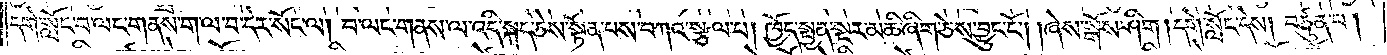དགེ་སློང་བ་ལང་གནས་ག་ལ་བ་དེར་སོང་ལ། བ་ལང་གནས་ལ་འདི་སྐད་ཅེས་སྟོན་པས་བཀའ་སྩལ་པ། ཁྱོད་སྤྱན་སྔར་མཆི་ཞིག་ཅེས་བྱུང་ངོ༌། །ཞེས་སྒོས་ཤིག །དགེ་སློང་དེས། བཙུན་པ།
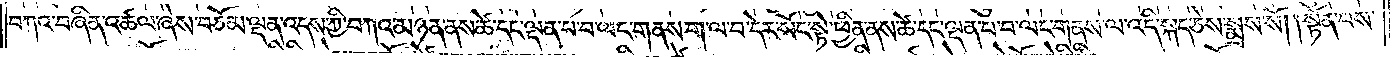བཀའ་བཞིན་འཚལ་ཞེས་བཅོམ་ལྡན་འདས་ཀྱི་བཀའ་མཉན་ནས་ཚེ་དང་ལྡན་པ་བ་ལང་གནས་ག་ལ་བ་དེར་སོང་སྟེ་ཕྱིན་ནས་ཚེ་དང་ལྡན་པ་བ་ལང་གནས་ལ་འདི་སྐད་ཅེས་སྨྲས་སོ། །སྟོན་པས་
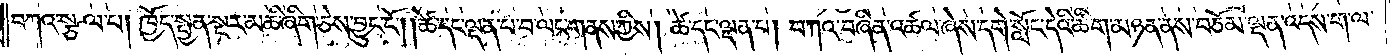བཀའ་སྩལ་པ། ཁྱོད་སྤྱན་སྔར་མཆི་ཞིག་ཅེས་བྱུང་ངོ༌། །ཚེ་དང་ལྡན་པ་བ་ལང་གནས་ཀྱིས། ཚེ་དང་ལྡན་པ། བཀའ་བཞིན་འཚལ་ཞེས་དགེ་སློང་དེའི་ཚིག་མཉན་ནས་བཅོམ་ལྡན་འདས་ག་ལ་
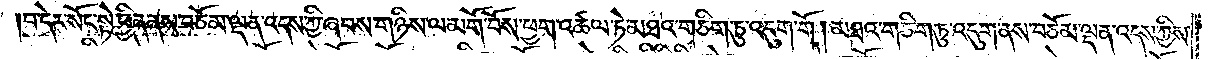བ་དེར་སོང་སྟེ་ཕྱིན་ནས་བཅོམ་ལྡན་འདས་ཀྱི་ཞབས་གཉིས་ལ་མགོ་བོས་ཕྱག་འཚལ་ཏེ་མཐའ་གཅིག་ཏུ་འདུག་གོ །མཐའ་གཅིག་ཏུ་འདུག་ནས་བཅོམ་ལྡན་འདས་ཀྱིས་
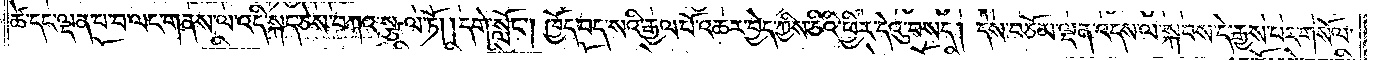ཚེ་དང་ལྡན་པ་བ་ལང་གནས་ལ་འདི་སྐད་ཅེས་བཀའ་སྩལ་ཏོ། །དགེ་སློང༌། ཁྱོད་བད་སའི་རྒྱལ་པོ་འཆར་བྱེད་ཀྱིས་ཅིའི་ཕྱིར་དེའུ་བསད། དེས་བཅོམ་ལྡན་འདས་ལ་སྐབས་དེ་རྒྱས་པར་གསོལ་
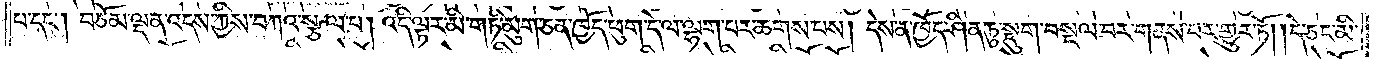པ་དང༌། བཅོམ་ལྡན་འདས་ཀྱིས་བཀའ་སྩལ་པ། འདི་ལྟར་མི་གཏི་མུག་ཅན་ཁྱོད་ཕུག་དེ་ལ་ལྷག་པར་ཆགས་པས། དེས་ན་ཁྱོད་ཤིན་ཏུ་སྡུག་བསྔལ་བར་གནས་པར་གྱུར་ཏོ། །དེ་ཅང་མི་
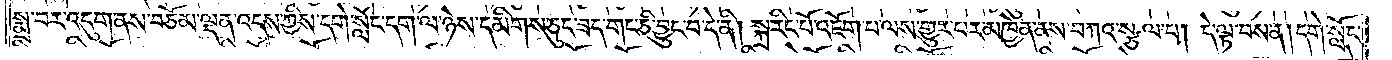སྨྲ་བར་འདུག་ནས་བཅོམ་ལྡན་འདས་ཀྱིས་དགེ་སློང་དག་ལ་ཉེས་དམིགས་ཅུང་ཟད་གང་ཅི་བྱུང་བ་དེ་ནི། སྐྲ་རིང་པོ་འཇོག་པ་ལས་གྱུར་པར་མཁྱེན་ནས་བཀའ་སྩལ་པ། དེ་ལྟ་བས་ན། དགེ་སློང་
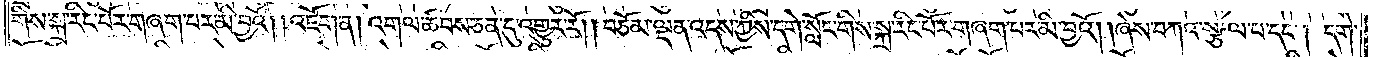གིས་སྐྲ་རིང་པོར་གཞག་པར་མི་བྱའོ། །འཇོག་ན། འགལ་ཚབས་ཅན་དུ་འགྱུར་རོ། །བཅོམ་ལྡན་འདས་ཀྱིས་དགེ་སློང་གིས་སྐྲ་རིང་པོར་གཞག་པར་མི་བྱའོ། །ཞེས་བཀའ་སྩལ་པ་དང༌། དགེ་
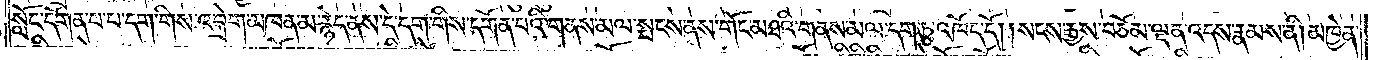སློང་དགོན་པ་པ་དག་གིས་འབྲེག་མཁན་མ་རྙེད་ནས་དེ་དག་གིས་དགོན་པའི་གནས་མལ་སྤངས་ནས་གོང་མཐའི་གནས་མལ་དག་ཏུ་འཁོད་དོ། །སངས་རྒྱས་བཅོམ་ལྡན་འདས་རྣམས་ནི། མཁྱེན་
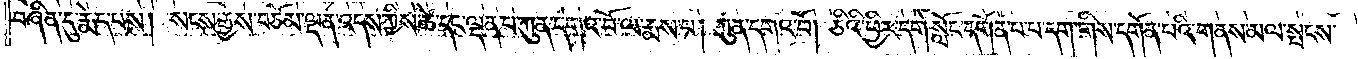བཞིན་དུ་རྨེད་པས། སངས་རྒྱས་བཅོམ་ལྡན་འདས་ཀྱིས་ཚེ་དང་ལྡན་པ་ཀུན་དགའ་བོ་ལ་རྨས་པ། ཀུན་དགའ་བོ། ཅིའི་ཕྱིར་དགེ་སློང་དགོན་པ་པ་དག་གིས་དགོན་པའི་གནས་མལ་སྤངས་
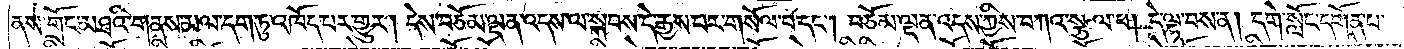ནས་གྲོང་མཐའི་གནས་མལ་དག་ཏུ་འཁོད་པར་གྱུར། དེས་བཅོམ་ལྡན་འདས་ལ་སྐབས་དེ་རྒྱས་པར་གསོལ་པ་དང༌། བཅོམ་ལྡན་འདས་ཀྱིས་བཀའ་སྩལ་པ། དེ་ལྟ་བས་ན། དགེ་སློང་དགོན་པ་
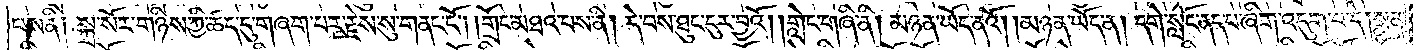པས་ནི། སྐྲ་སོར་གཉིས་ཀྱི་ཚད་དུ་གཞག་པར་རྗེས་སུ་གནང་ངོ༌། །གྲོང་མཐའ་པས་ནི། དེ་བས་ཐུང་ངུར་བྱའོ། །གླེང་གཞི་ནི། མཉན་ཡོད་ནའོ། །མཉན་ཡོད་ན། དགེ་སློང་ནད་པ་ཞིག་འདུག་པ་དེ། སྨན་
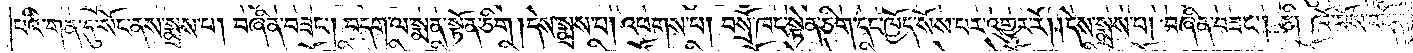པའི་གན་དུ་སོང་ནས་སྨྲས་པ། བཞིན་བཟང༌། བདག་ལ་སྨན་སྟོན་ཅིག །དེས་སྨྲས་པ། འཕགས་པ། བསྲོ་ཁང་སྟེན་ཅིག་དང་ཁྱོད་སོས་པར་འགྱུར་རོ། །དེས་སྨྲས་པ། བཞིན་བཟང༌། ཅི། ཁོ་བོས་འདོད་
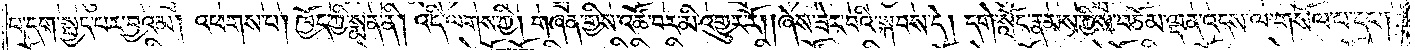པ་དག་སྤྱད་པར་བྱའམ། འཕགས་པ། ཁྱོད་ཀྱི་སྨན་ནི། འདི་ལགས་ཀྱི། གཞན་གྱིས་འཚོ་བར་མི་འགྱུར་རོ། །ཞེས་ཟེར་བའི་སྐབས་དེ། དགེ་སློང་རྣམས་ཀྱིས་བཅོམ་ལྡན་འདས་ལ་གསོལ་པ་དང༌།
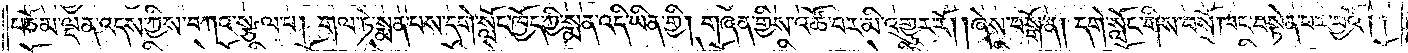བཅོམ་ལྡན་འདས་ཀྱིས་བཀའ་སྩལ་པ། གལ་ཏེ་སྨན་པས་དགེ་སློང་ཁྱོད་ཀྱི་སྨན་འདི་ཡིན་གྱི། གཞན་གྱིས་འཚོ་བར་མི་འགྱུར་རོ། །ཞེས་བསྒོ་ན། དགེ་སློང་གིས་བསྲོ་ཁང་བསྟེན་པར་བྱའོ། །
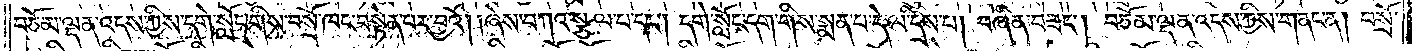བཅོམ་ལྡན་འདས་ཀྱིས་དགེ་སློང་གིས་བསྲོ་ཁང་བསྟེན་པར་བྱའོ། །ཞེས་བཀའ་སྩལ་པ་དང༌། དགེ་སློང་དག་གིས་སྨན་པ་དེ་ལ་དྲིས་པ། བཞིན་བཟང༌། བཅོམ་ལྡན་འདས་ཀྱིས་གནང་ན། བསྲོ་
